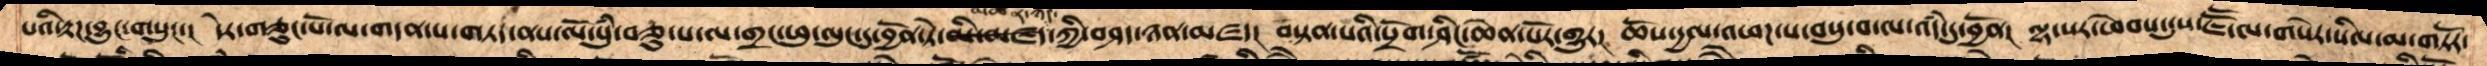པའི་རྟཌ་བྱུང་གསུང་།  དེར་གཅུང་པོ་ལ་གདན་ས་གཏད་ནས་ལོ་སུཾ་བཅུ་པ་ལ་གྲང་ཕུ་ལུང་དུ་བྱོན་ཏེ་མི་མཛད་ཀྱི་བཤད་ཉན་མཛད། བསྟན་པའི་སྲོག་ཤིང་ཆེན་པོར་གྱུར། ཆོས་དྱལ་འཕཌ་པ་བསུ་བ་ལ་འདཾ་དུ་བྱོན།  ལྷ་སར་ཕེབས་དུས་ཇཽ་ལ་གསེར་སིལ་མ་གཏོར་
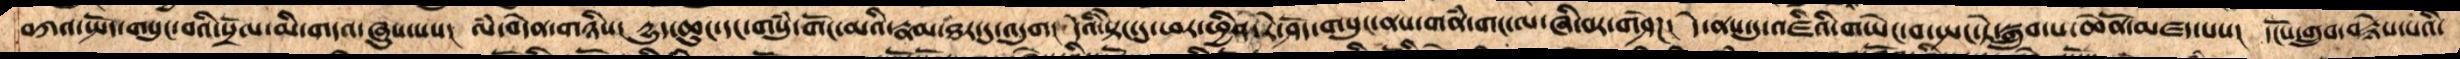བཀའ་སྤོད་གསུང་བའི་སྲོལ་མི་གདའ་ཞུས་པས།  ལཾ་བདེན་གཉིས།  དྱུད་ཆུང་དང་གསུཾ་གོང་མའི་རྣམ་ཐར་དུ་འདུག།  དེའི་སྟེང་དུ་ཕར་ཕྱིན་རེ་ཤོད་གསུང་ནས་གནཾ་གང་ལ་ཞི་བར་གཤེཌ།  དེ་ནས་དུ་འཛིའི་གཡེང་བ་སྤང་ཏེ་སྒྲུབ་པ་ཆེནོ་མཛད་པས།  དངོས་གྲུབ་བརྙེས་པའི་
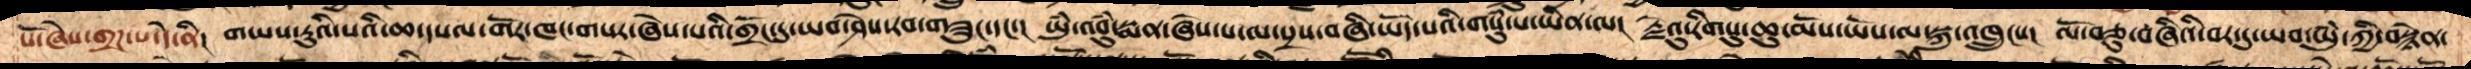པོ་ཞེས་གྲཌ་པ་དེ་ནི།  གཡས་རུའི་སའི་ཆ་དཔལ་གོར་ཁང་གསར་ཞེས་པའི་གྲོང་དུ་ཡབ་ཤེས་རབ་གཟུང་དང་།  ཡུཾ་འབུཾ་སྨན་ཞེས་པ་ལ་སྲས་བཞི་ཡོད་པའི་གསུཾ་པ་ཡིན་ལ།  རྗེའུའི་རིགསུ་ཆུ་མོ་ཡོས་ལ་སྐུ་འཁྲུངས།  ལོ་བཅུ་བཞིའི་བར་དུ་ཡབ་ཡུཾ་ཀྱི་བསྙེན་
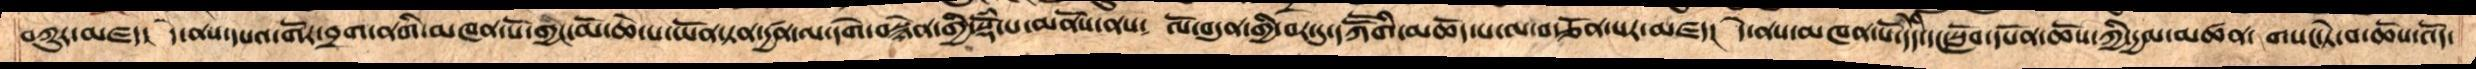བཀུར་མཛད།  དེ་ནས་དཔའ་གོར་བྲག་ནགི་མཁན་པོ་གྱང་མོ་ཆེ་པ་ཡོན་ཏན་དྱཚན་ལ་དགེ་བསྙེན་གྱི་སྡོཾ་པ་མནོས་ནས༴  ལོ་བདུན་གྱི་བར་དུ་དཀཽགི་མཆོད་པ་ལ་བརྩོན་པར་མཛད།  དེ་ནས་མཁན་པོ་དེདི་དང་སློབ་དཔོན་ཆོས་ཀྱི་དྱལ་མཚན།  གསང་ཏེ་བ་ཆོས་འོད་
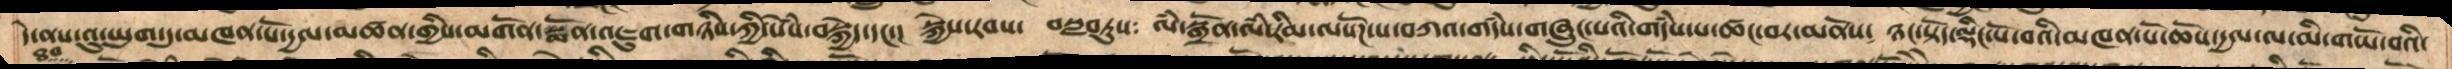དེ་ནས་འུ་ཡུག་དུ་མཁན་པོ་དྱལ་མཚན་གྱིས་མགོན་སྨོན་འཇུག་གཉིས་ཀྱི་སེཾས་བསྐྱེད་དང་། སྐྱེས་རབས་ བསླབཏུས༴ ལཾ་སྒྲོན་ལཾ་རིམ་ལསོཌ་པ་བཀའ་གདཾས་གཞུང་པའི་གདཾས་པ་ཚང་བར་མནོས། ཉང་སྟོད་ལྡིང་པོ་བའི་མཁན་པོ་ཆོས་དྱལ་ལ་མི་གཡོ་བའི་
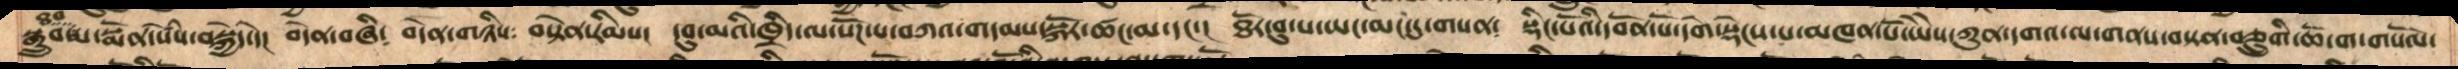སྒྲུབ་ཐབས་སྨོན་སེཾས་བསྐྱེད་དེ། བདེན་བཞི༴ བདེན་གཉིས༴ བསྟེན་རིམས་ དབུ་མའི་ཁྲིད་ལ་སོཌ་པ་བ་ཀའ་གདམས་སྐོར་ཚང་མ་དང་། ཐོར་བུ་པ་ཡང་མང་དུ་གསན། སྡིང་པོའི་དབོན་པོ་དགེ་སྡེངས་པ་མཁན་པོ་ཡཻས་ཀུན་དགའ་ལ་གནས་བསྟནབཅྲུགི་ཆོ་ག་གསོལ་
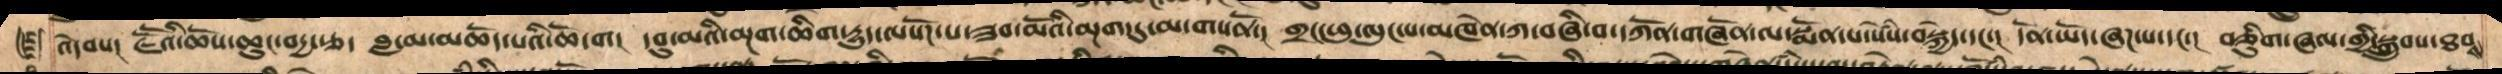འདེབས། ཇཽའི་ཆོས་ཆུང་བདྱ་རྩ་  བླ་མ་མཆོད་པའི་ཆོ་ག། དབུ་མའི་མྔག་ཆིག་དྱུད་ལསོཌ་པ་ཟབ་མོའི་མྔག་དུ་མ་གསནོ།  གྲང་ཕུ་ལུང་པ་མཁེན་ཀ་བཞི་བ་དཀོན་གཞོན་ལ་སྨོན་པ་སེཾས་བསྐྱེད་དང་། དོན་ཡོད་ཞཌ་པ་དང་། བཅིུག་ཞལ་གྱི་སྒྲུབས་ཐབས་
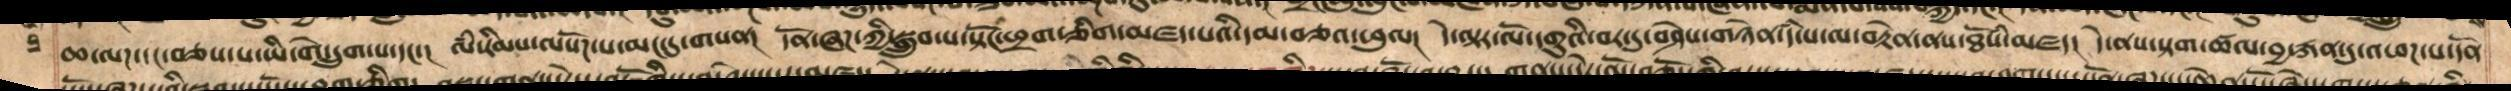ཆ་ལཌ་དང་བཅས་པ་ཡི་གེ་དྲུག་པ་དང་། ལཾ་རིམས་ལསོཌ་པ་མང་དུ་གསན། དོན་ཞཌ་ཀྱི་སྒྲུབ་པ་སྟོང་ཕྲག་ཅིག་མཛད་པའི་དམ་བཅའ་ཕུལ། དེ་ལྟར་ལོ་དགུའི་བར་དུ་བཤེས་གཉེན་དཾ་པ་ལ་བརྟེན་ནས་ཐོཾས་མཛད། དེ་ནས་སྟག་ཚལ་བྱ་རྐན་དུ་འཕཌ་པ་དོན་
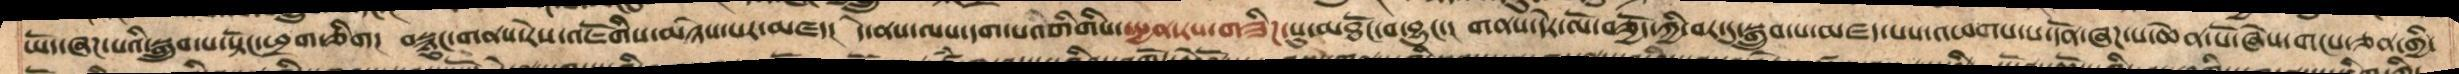ཡོད་ཞཌ་པའི་སྒྲུབ་པ་སྟོང་ཕྲག་ཅིག།  བསྙུང་གནས་རེས་འཇོགིས་མཉེས་པར་མཛད།  དེ་ནས་ལས་དག་པའིགིགིས་སྤྱན་རས་གཟིཌ་སུ་མཐོང་བ་བྱུང་། གནས་དེར་ལོ་བཅྱོད་ཀྱི་བར་དུ་སྒྲུབ་པ་མཛད་པས་འཕགས་པ་དོན་ཞཌ་པ་ཆེན་པོ་ཞེས་གངས་ཅན་གྱི་
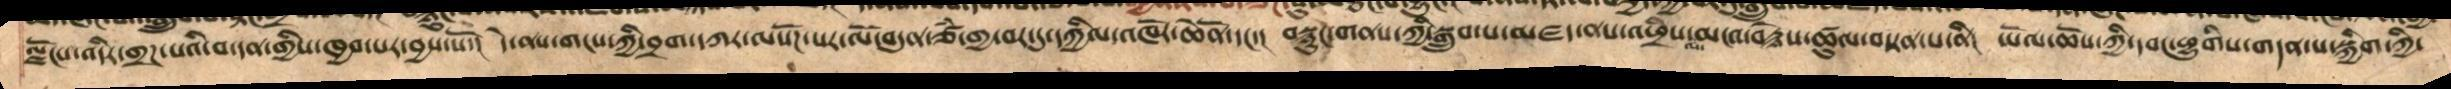ལྗོངས་འདིར་གྲཌ་པའི་བ་དན་གྱིས་ཁྱབ་པར་བྱས་སོ། དེ་ནས་གངས་ཀྱི་བྲག་དཀར་ལསོཌ་པར་ལོ་བདུན་ཙཾ་གྱ་བར་དུ་དཀྱིལ་འཁོར་ཆེནོ་དང་། བསྙུང་གནས་ཀྱི་སྒྲུབ་པ་མཛད་ནས་འཕྲིས་ལ་མངའ་བརྙེས་ཚུལ་བསྟན་པ་ནི། ཡོལ་ཆོས་ཀྱི་དབང་ཕྱུགིས་གདན་ས་སྐྱིག་ཀྱི་
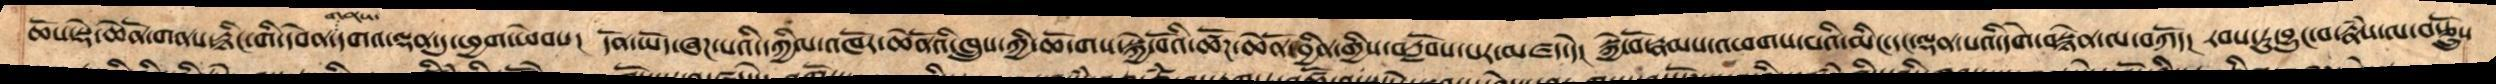ཆོས་སྡེ་ཆེནོ་གནས་རྙིང་གི་དབེན་གནས་དགའ་ལྡན་དུ་ཕྱག་ཕེབས། དོན་ཡོད་ཞཌ་པའི་དཀྱིལ་འཁོར་ཆེནོའི་ཁྲུས་ཀྱི་ཆོ་གས་སྐྱེ་བོའི་ཚོཌ་ཆེནོ་བྱིན་གྱིས་བརློབས་པར་མཛད་དེ། སྐྱེ་བོ་རྣམས་འཕགས་པའི་མིང་དང་ལྡན་པའི་དགེ་བསྙེན་ལ་བཀོད། རབས་ཏུ་བྱུང་བ་རྣཾས་ལ་བརྩྲོུས
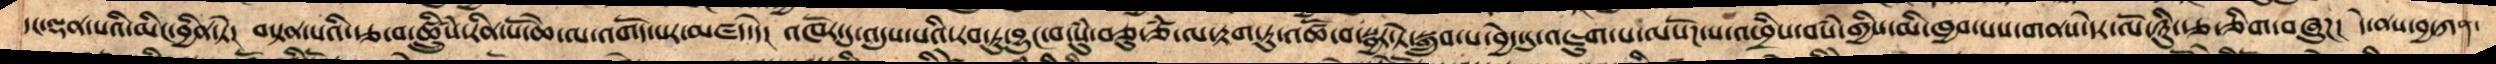དང་ལྡན་པའི་མིང་བྱིན་ཏེ། བསྟན་པའི་རྩ་བ་ཚྲིུཾས་རིན་པོ་ཆེ་ལ་འགོད་པར་མཛད་དེ། འཁོར་དུ་འདུས་པའི་རབ་ཏུ་བྱུང་བ་སུཾ་ཅུ་ཙཾ་ལ་རྟག་ཏུ་འཚོ་བ་སྦྱར་ཏེ་སྒྲུབ་པ་བྱེད་དུ་འཇུག་པ་ལསོཌ་པ་འཕྲིས་བསཾ་གྱིས་མི་ཁྱབ་པས་གནས་དེར་ལོ་ཉིུ་རྩ་ཅིག་བཞུཌ། དེ་ནས་བྱ་ཀན་
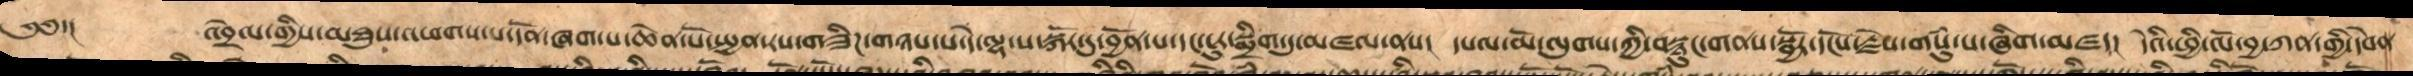༄༅་།      འབྲེལ་གྱིས་མཐུས་འཕགས་པ་དོན་ཞག་པ་ཆེན་པོ་སྤྱན་རས་གཟིཌ་གཉས་པ་དེ་ལྷ་ས་སྐོར་དུ་བྱོན་པ་དང་ངུར་སྨྲིག་དུ་མཛལ་ནས།  དཔལ་མོ་ལུགས་ཀྱི་བསྙུང་གནས་སྦྱོར་དངོས་རྗེས་གསུཾ་པ་ཞིག་མཛད།  དེའི་ཕྱི་ལོ་བྱ་ཀན་གྱི་དབེན
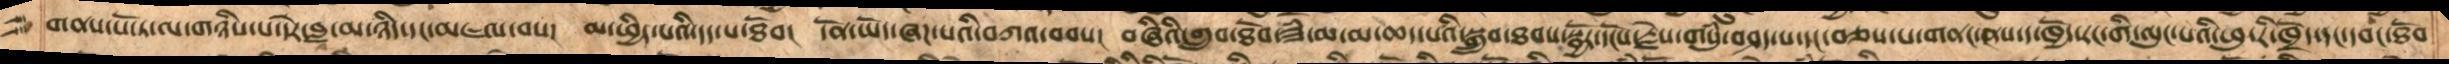གནས་པོ་ཏ་ལ་གཉིས་པ་དེར་བླ་མའི་ཉིད་དང་མཇལ་བས། མ་ཕྱེད་པའི་དད་པ་ཐོབ། དོན་ཡོད་ཞཌ་པའི་བཀའ་བབས། བཞིའི་གྲུབ་ཐོབ་ཟཾ་མ་ཆད་པའི་སྒྲུབ་ཐབས་སྦྱོར་དངོས་རྗེས་གསུཾ་བཤད་པ་དང་བཅས་པ་གནང་ནས་ད་ཁྱོད་རང་གི་ལུང་པའི་ཕུ་རི་ཁྲོད་དང་དབང་ཐོབ་
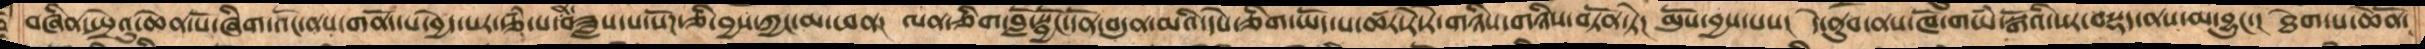བཞིན་སྤྲེའུ་ཆེན་པོ་ཞིག་འོང་ནས་གནོད་པ་བྱེད་པར་རྩཾ་པ་ལ་བཟླས་པ་སོཌ་ཅི་བྱས་ཀྱང་མ་ཕན། ལན་གཅིག་བློ་སྦྱོང་དོན་བདུན་མའི་དཔེ་ཅིག་ཡོད་པ་ཚར་རེ་རེ་གཉིས་བཏོན་ཏེ། མོུས་བྱས་པས། དེ་ནུབ་ནས་ཁོ་གཡཾ་སྒོའི་སར་བསྡད་ནས་མ་བྱུང་། ཐེག་པ་ཆེནོ་
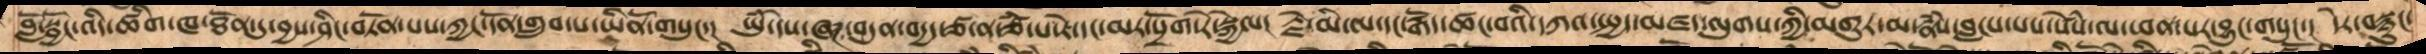བློ་སྦྱོང་འདི་ཚིག་ཁ་ཐོན་དུ་བྱས་ཤིང་བཏོན་པས་ཀྱང་དོན་འགྲུབ་པ་ཡིནོ་གསུངས།  ཡུཾ་དེས་ཞཌ་བདུན་བདྱད་ཙ་ན་ཙཾ་པ་རེ་དང་མར་སྲོག་རེ་སྐྱེལ།  རྗེ་མི་ལ་དང་རྒོད་ཚང་བའི་དཀའ་སྤྱད་མཛད་ལུགས་ཀྱི་མགུར་མ་རྣཾས་བླངས་པས་སེཾས་ལ་ཕན་པར་བྱུང་གསུང་། དེར་བསྙུང་་
